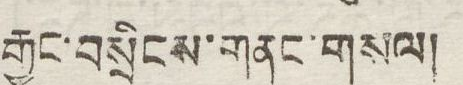རྒྱང་བསྲིངས་གནང་གསལ།
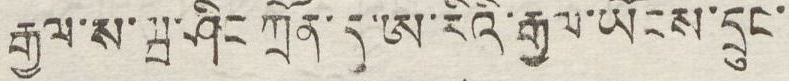རྒྱལ་ས་ཝ་ཤིང་ཀྲོན་དུ་ཨ་རིའི་རྒྱལ་ཡོངས་དྲུང་
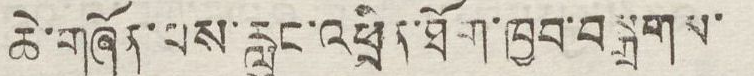ཆེ་གཞོན་པས་རླུང་འཕྲིན་ཐོག་ཁྱབ་བསྒྲགས་
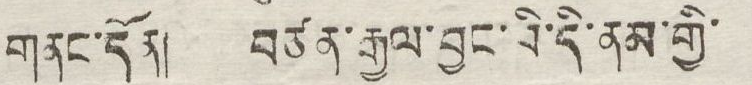གནང་དོན། བཙན་རྒྱལ་བྱང་བི་དི་ནམ་གྱི་
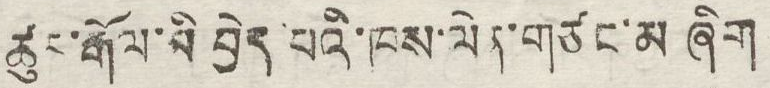ཚུར་རྒོལ་མི བྱེད་པའི་ཁས་ལེན་གཙང་མ ཞིག
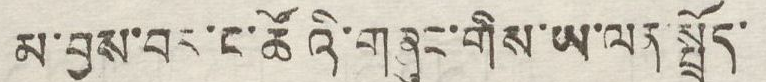མ་བྱས་བར་ང་ཚོའི་གཞུང་གིས་ཡ་ལན་སྤྲོད་
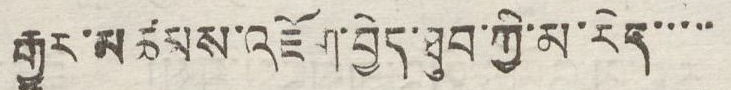རྒྱུར་མཚམས་འཇོག་བྱེད་ཐུབ་ཀྱི་མ་རེད་་་་་
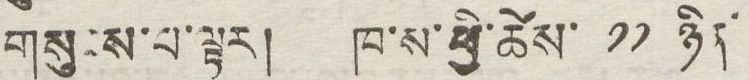གསུངས་པ་ལྟར། ཁ་ས་ཕྱི་ཚེས་ ༡༡ ཉིན་
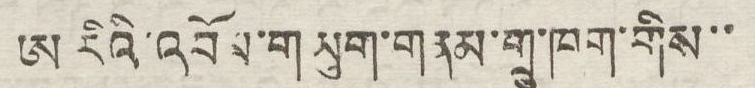ཨ་རིའི་འབོམ་གཡུག་གནམ་གྲུ་ཁག་གིས་་
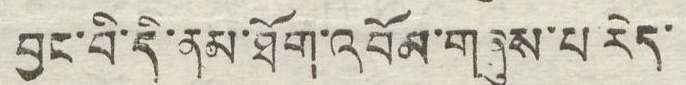བྱང་བི་དི་ནམ་ཐོག་འབོམ་གཞུས་པ་རེད་
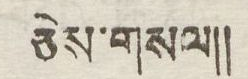ཅེས་གསལ།།
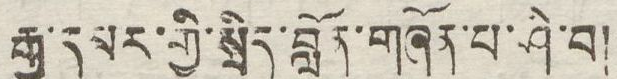རྒྱ་དམར་གྱི་སྲིད་བློན་གཞོན་པ་ཤི་བ།
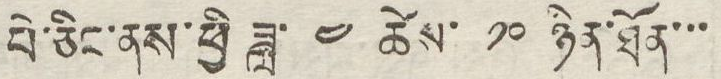པེ་ཅིང་ནས་ཕྱི ཟླ་ ༤ ཚེས་ ༡༠ ཉིན་ཐོན་་་
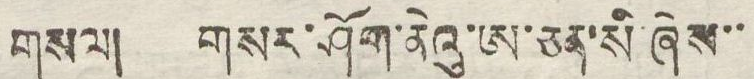གསལ། གསར་ཤོག་ནེའུ་ཨ་ཅན་སི་ཞེས་་
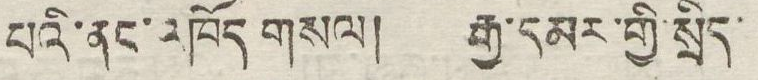པའི་ནང་འཁོད་གསལ། རྒྱ་དམར་གྱི་སྲིད་
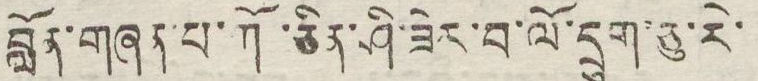བློན་གཞན་པ་ཀོ་ཅིན་ཤི་ཟེར་བ་ལོ་དྲུག་ཅུ་རེ་
